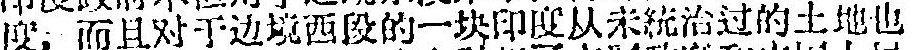度，而且对于边境西段的一块印度从未統治过的土地也
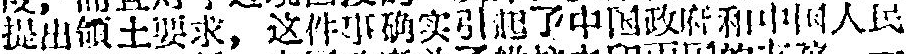提出領主要求，这件事确实引起了中国政府和中国人民
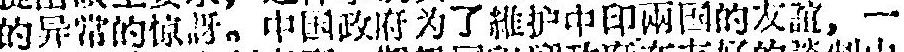的异常的惊訝。中国政府为了維护中印兩国的友誼，一
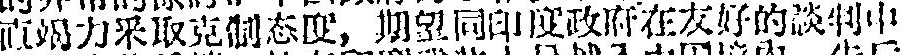直竭力采取克制态度，期望同印度政府在友好的談判中
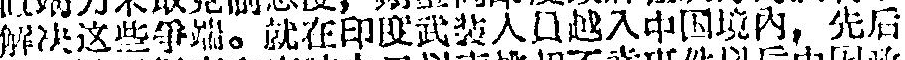解決这些爭端。就在印度武装人員越入中国境内，先后
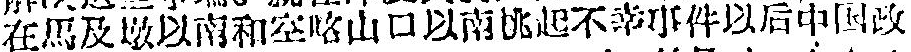在馬及墩以南和空喀山口以南挑起不幸事件以后中国政
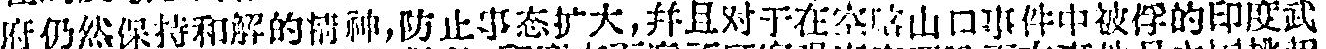府仍然保持和解的精神，防止事态扩大，并且对于在空喀山口事件中被俘的印度武
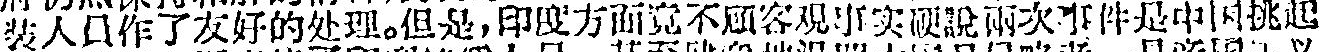装人員作了友好的处理。但是，印度方面竟不頋客覌事实硬說兩次事件是中国挑起
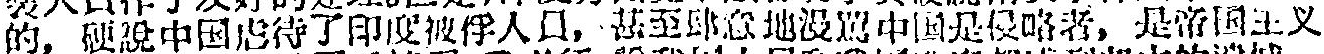的，硬說中国虐待了印度被俘人員，甚至肆意地漫罵中国是侵略者，是帝国主义
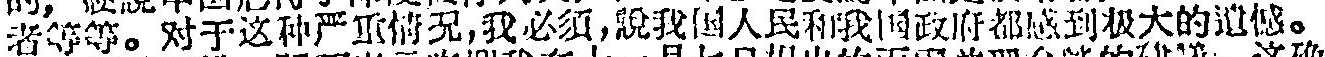者等等。对于这种严重情況，我必須，說我国人民和我国政府都感到极大的遺憾。
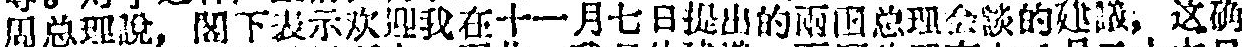周总理說，閣下表示欢迎我在十一月七日提出的兩国总理会談的建議，这确
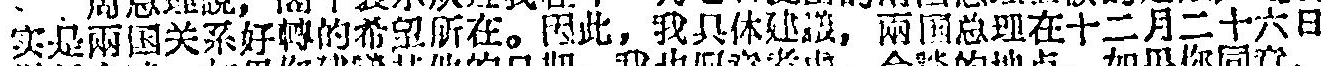实是兩国关系好轉的希望所在。因此，我具体建議，兩同总理在十二月二十六日
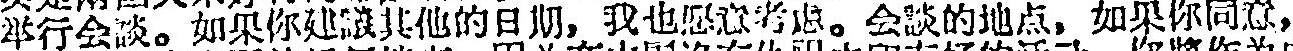举行会談。如果你建議其他的日期，我也愿意考虑。会談的地点，如果你同意，
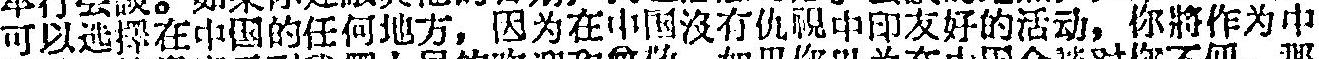可以选擇在中国的任何地方，因为在中国沒有仇視中印友好的活动，你將作为中
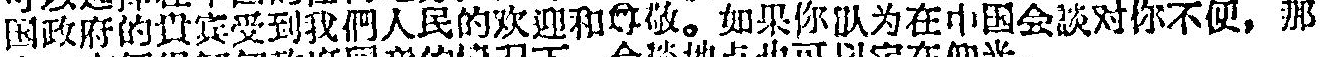国政府的貴宾受到我們人民的欢迎和尊敬。如果你认为在中国会談对你不便，那
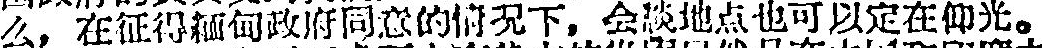么，在征得緬甸政府同意的情况下，会談地点也可以定在仰光。
